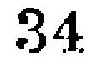34
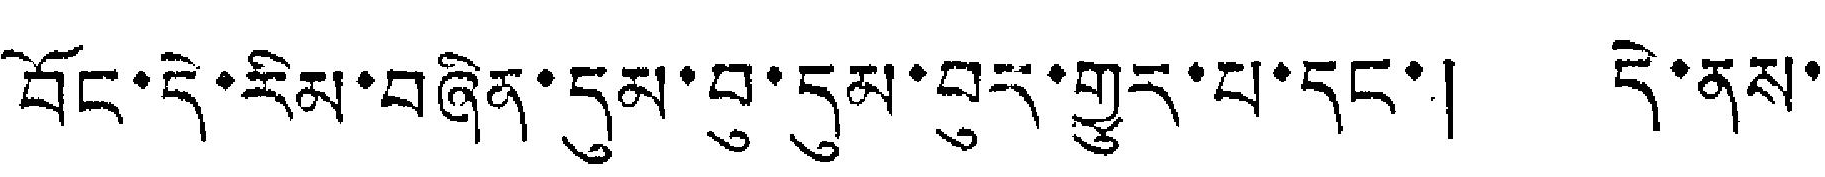བོང་དེ་རིམ་བཞིན་དུམ་བུ་དུམ་བུར་གྱུར་པ་དང་། དེ་ནས་
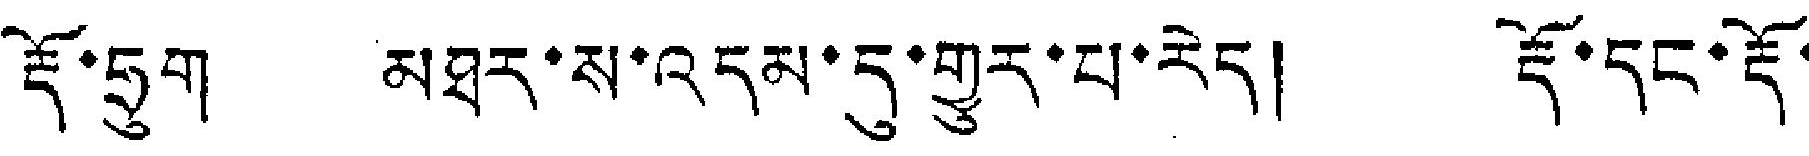རྡོ་ཧྲུག མཐར་ས་འདམ་དུ་གྱུར་པ་རེད། རྡོ་དང་རྡོ་
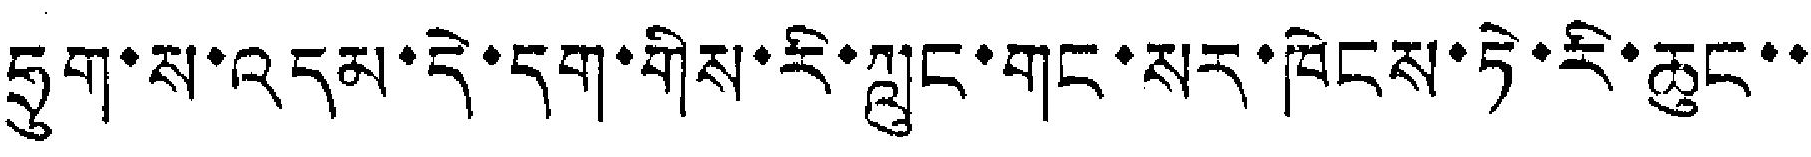ཧྲུག་ས་འདམ་དེ་དག་གིས་རི་ཀླུང་གང་སར་ཁེངས་ཏེ་རི་ཆུང་་
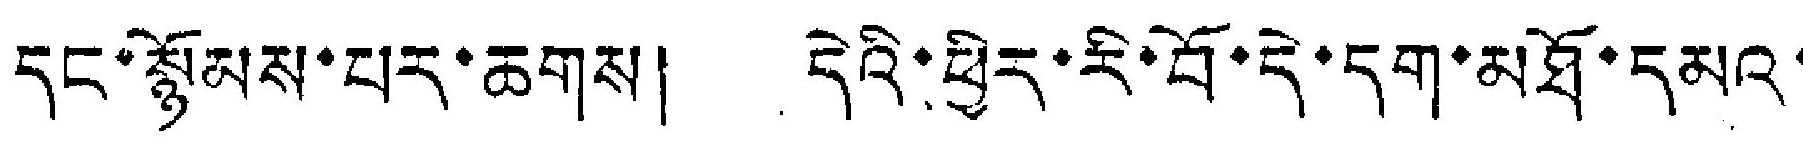དང་སྙོམས་པར་ཆགས། དེའི་ཕྱིར་རི་བོ་དེ་དག་མཐོ་དམའ་
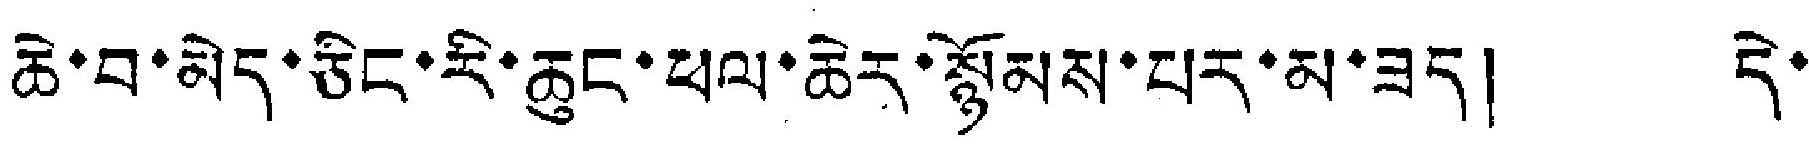ཆེ་བ་མེད་ཅིང་རི་ཆུང་ཕལ་ཆེར་སྙོམས་པར་མ་ཟད། དེ་
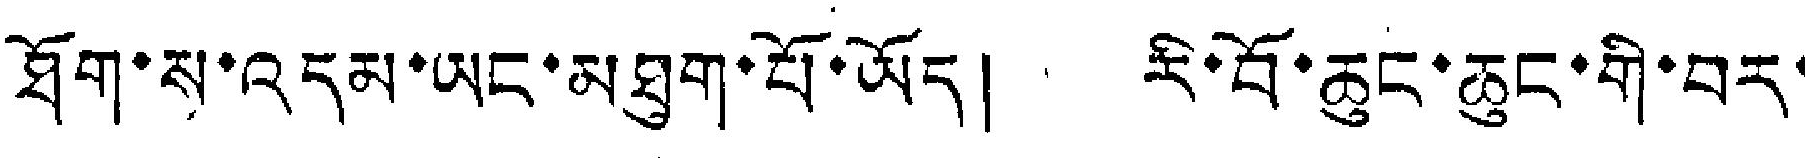ཐོག་ས་འདམ་ཡང་མཐུག་པོ་ཡོད། རི་བོ་ཆུང་ཆུང་གི་བར་
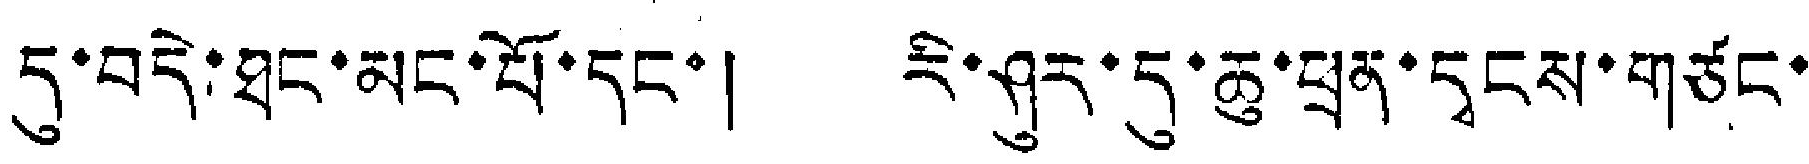དུ་བདེ་ཐང་མང་པོ་དང་། རི་ཤུར་དུ་ཆུ་ཕྲན་དྭངས་གཙང་
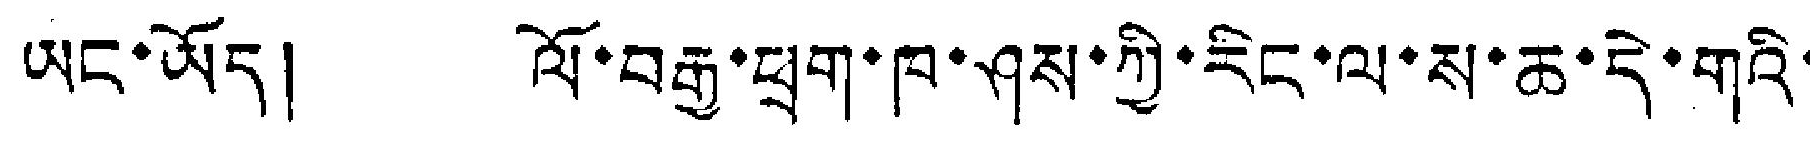ཡང་ཡོད། ལོ་བརྒྱ་ཕྲག་ཁ་ཤས་ཀྱི་རིང་ལ་ས་ཆ་དེ་གའི་
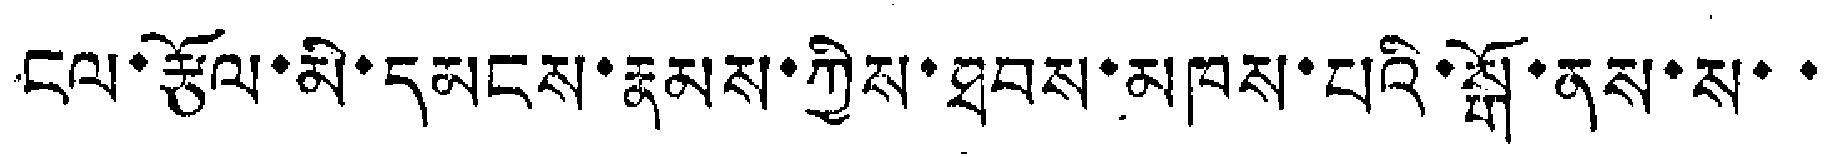ངལ་རྩོལ་མི་དམངས་རྣམས་ཀྱིས་ཐབས་མཁས་པའི་སྒོ་ནས་ས་་
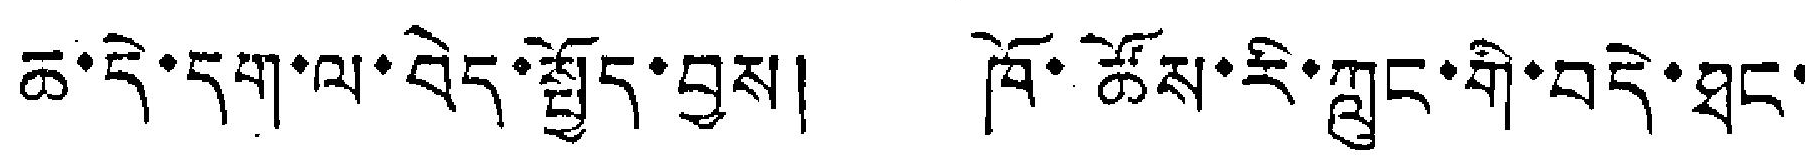ཆ་དེ་དག་ལ་བེད་སྤྱོད་བྱས། ཁོ་ཚོས་རི་ཀླུང་གི་བདེ་ཐང་
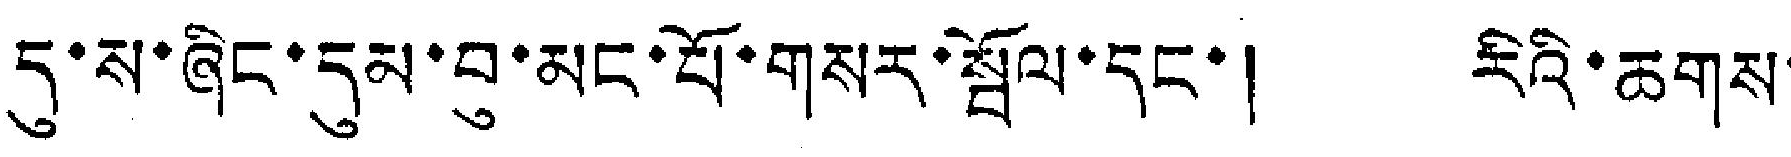དུ་ས་ཞིང་དུམ་བ་མང་པོ་གསར་སྦོལ་དང་། རིའི་ཆགས་
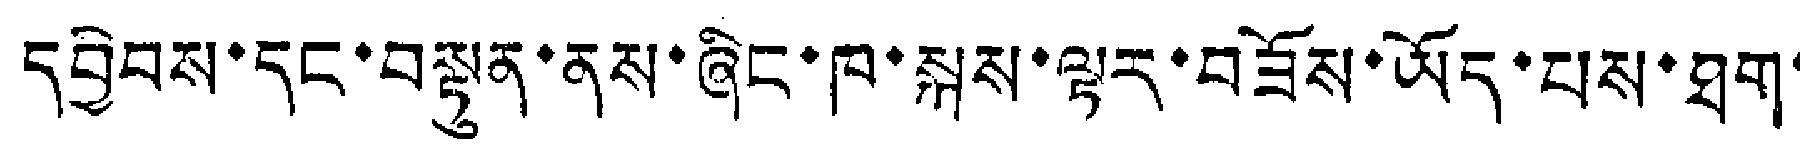དབྱིབས་དང་བསྟུན་ནས་ཞིང་ཁ་སྐས་ལྟར་བཟོས་ཡོད་པས་ཐག་
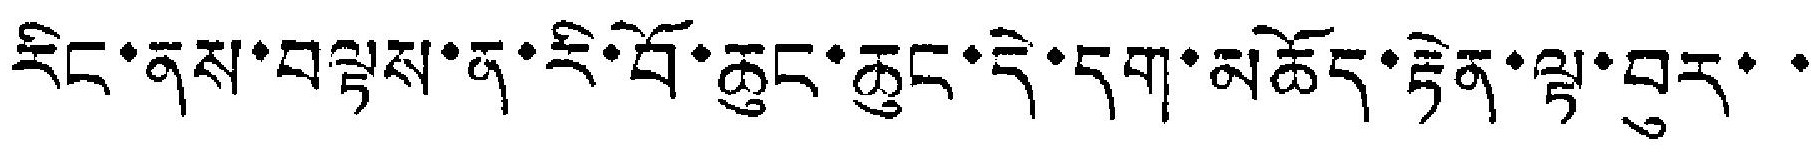རིང་ནས་བལྟས་ན་རི་བོ་ཆུང་ཆུང་དེ་དག་མཆོད་རྟེན་ལྷ་བུར་་་
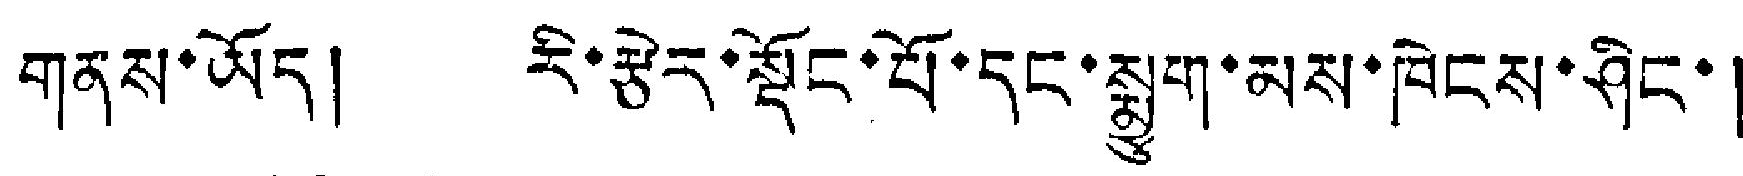གནས་ཡོད། རི་རྩེར་སྡོང་པོ་དང་སྨྱུག་མས་ཁེངས་ཤིང་།
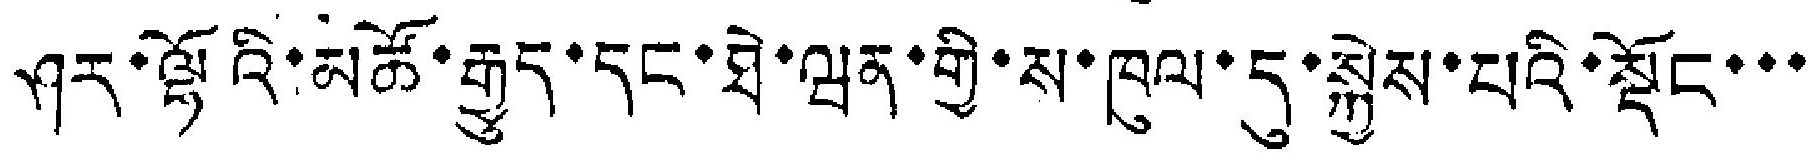ཤར་ལྷོའི་མཚོ་རྒྱུད་དང་ཐེ་ཝྲན་གྱི་ས་ཁུལ་དུ་སྐྱེས་པའི་སྡོང་་་
